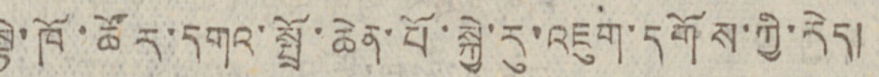སྟེ་ཁོ་ཚོར་དགའ་སྤྲོ་ཆེན་པོ་སྐྱེ་རུ་འཇུག་དགོས་ཀྱི་རེད།
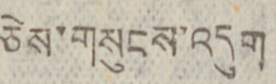ཅེས་གསུངས་འདུག
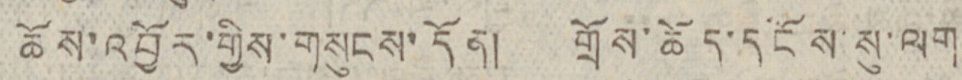ཆོས་འབྱོར་གྱིས་གསུངས་དོན། གྲོས་ཆོད་དངོས་སུ་ལག
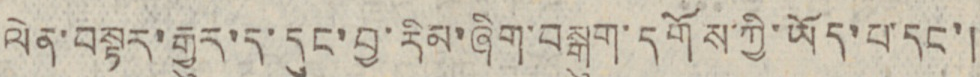ལེན་བསྟར་རྒྱུར་ད་དུང་བྱ་རིམ་ཞིག་བསྒུག་དགོས་ཀྱི་ཡོད་པ་དང་།
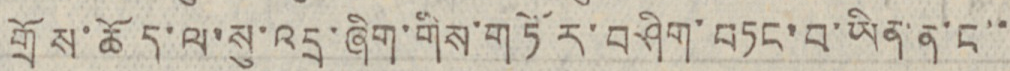གྲོས་ཆོད་ལ་སུ་འདྲ་ཞིག་གིས་གཏོར་བཤིག་བཏང་བ་ཡིན་ན་ང་་
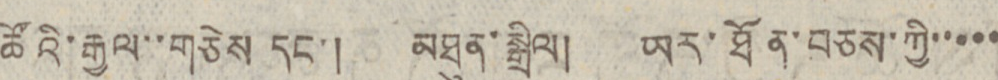ཚོའི་རྒྱལ་་གཅེས དང་། མཐུན་སྒྲིལ། ཡར་ཐོན་བཅས་ཀྱི་་་་་
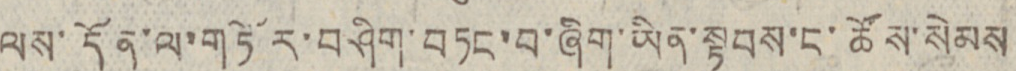ལས་དོན་ལ་གཏོར་བཤིག་བཏང་བ་ཞིག་ཡིན་སྟབས་ང་ཚོས་སེམས
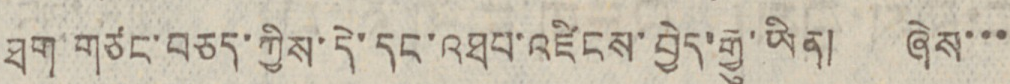ཐག་གཙང་བཅད་ཀྱིས་དེ་དང་འཐབ་འཛིངས་བྱེད་རྒྱུ་ཡིན། ཞེས་་་
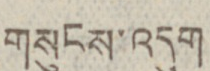གསུངས་འདུག
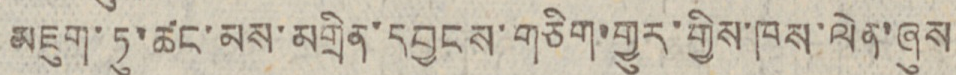མཇུག་ཏུ་ཚང་མས་མགྲིན་དབྱངས་གཅིག་གྱུར་གྱིས་ཁས་ལེན་ཞུས
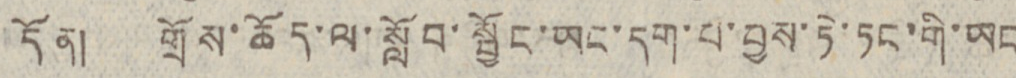དོན། གྲོས་ཆོད་ལ་སློབ་སྦྱོང་ཡང་དག་པ་བྱས་ཏེ་ཏང་གི་ཡང
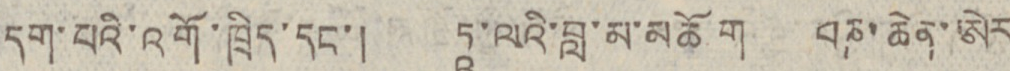དག་པའི་འགོ་ཁྲིད་དང་། ཏཱ་ལའི་བླ་མ་མཆོག པཎ་ཆེན་ཨེར
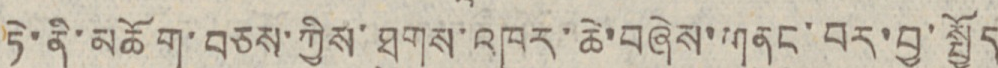ཏེ་ནི་མཆོག་བཅས་ཀྱིས་ཐུགས་འཁུར་ཆེ་བཞེས་གནང་བར་བྱ་སྤྱོད་
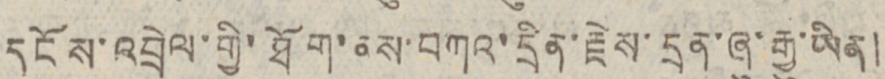དངོས་འབྲེལ་གྱི་ཐོག་ནས་བཀའ་དྲིན་རྗེས་དྲན་ཞུ་རྒྱུ་ཡིན།
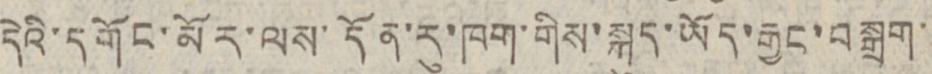དེའི་དགོང་མོར་ལས་དོན་རུ་ཁག་གིས་སྐུད་ཡོད་རྒྱང་བསྒྲག་་
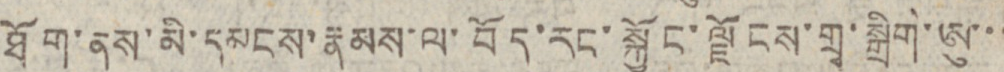ཐོག་ནས་མི་དམངས་རྣམས་ལ་བོད་རང་སྐྱོང་ལྗོངས་གྲྭ་སྒྲིག་ཨུ་་་
